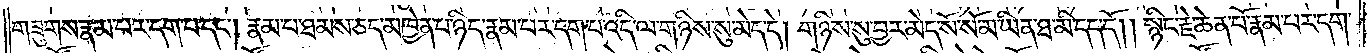གཟུགས་རྣམ་པར་དག་པ་དང༌། རྣམ་པ་ཐམས་ཅད་མཁྱེན་པ་ཉིད་རྣམ་པར་དག་པ་འདི་ལ་གཉིས་སུ་མེད་དེ། གཉིས་སུ་བྱར་མེད་སོ་སོ་མ་ཡིན་ཐ་མི་དད་དོ། །སྙིང་རྗེ་ཆེན་པོ་རྣམ་པར་དག་
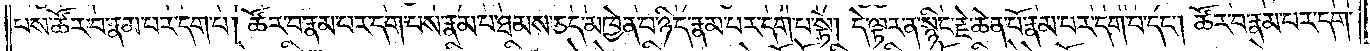པས་ཚོར་བ་རྣམ་པར་དག་པ། ཚོར་བ་རྣམ་པར་དག་པས་རྣམ་པ་ཐམས་ཅད་མཁྱེན་པ་ཉིད་རྣམ་པར་དག་པ་སྟེ། དེ་ལྟར་ན་སྙིང་རྗེ་ཆེན་པོ་རྣམ་པར་དག་པ་དང༌། ཚོར་བ་རྣམ་པར་དག་
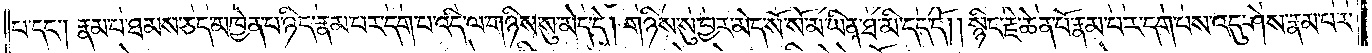པ་དང༌། རྣམ་པ་ཐམས་ཅད་མཁྱེན་པ་ཉིད་རྣམ་པར་དག་པ་འདི་ལ་གཉིས་སུ་མེད་དེ། གཉིས་སུ་བྱར་མེད་སོ་སོ་མ་ཡིན་ཐ་མི་དད་དོ། །སྙིང་རྗེ་ཆེན་པོ་རྣམ་པར་དག་པས་འདུ་ཤེས་རྣམ་པར་
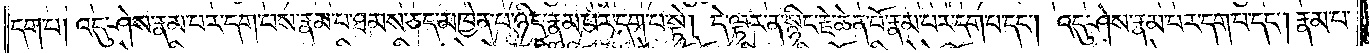དག་པ། འདུ་ཤེས་རྣམ་པར་དག་པས་རྣམ་པ་ཐམས་ཅད་མཁྱེན་པ་ཉིད་རྣམ་པར་དག་པ་སྟེ། དེ་ལྟར་ན་སྙིང་རྗེ་ཆེན་པོ་རྣམ་པར་དག་པ་དང༌། འདུ་ཤེས་རྣམ་པར་དག་པ་དང༌། རྣམ་པ་
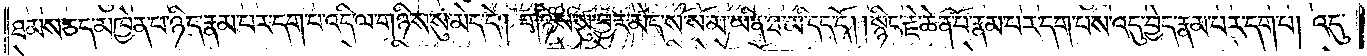ཐམས་ཅད་མཁྱེན་པ་ཉིད་རྣམ་པར་དག་པ་འདི་ལ་གཉིས་སུ་མེད་དེ། གཉིས་སུ་བྱར་མེད་སོ་སོ་མ་ཡིན་ཐ་མི་དད་དོ། །སྙིང་རྗེ་ཆེན་པོ་རྣམ་པར་དག་པས་འདུ་བྱེད་རྣམ་པར་དག་པ། འདུ་
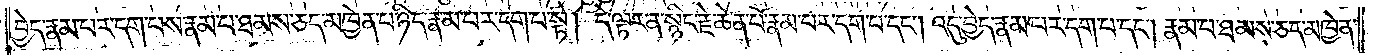བྱེད་རྣམ་པར་དག་པས་རྣམ་པ་ཐམས་ཅད་མཁྱེན་པ་ཉིད་རྣམ་པར་དག་པ་སྟེ། དེ་ལྟར་ན་སྙིང་རྗེ་ཆེན་པོ་རྣམ་པར་དག་པ་དང༌། འདུ་བྱེད་རྣམ་པར་དག་པ་དང༌། རྣམ་པ་ཐམས་ཅད་མཁྱེན་
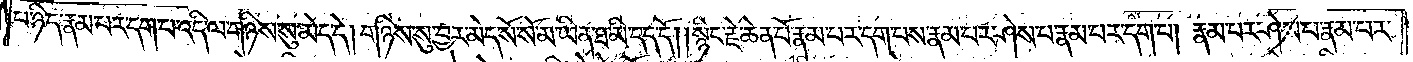པ་ཉིད་རྣམ་པར་དག་པ་འདི་ལ་གཉིས་སུ་མེད་དེ། གཉིས་སུ་བྱར་མེད་སོ་སོ་མ་ཡིན་ཐ་མི་དད་དོ། །སྙིང་རྗེ་ཆེན་པོ་རྣམ་པར་དག་པས་རྣམ་པར་ཤེས་པ་རྣམ་པར་དག་པ། རྣམ་པར་ཤེས་པ་རྣམ་པར་
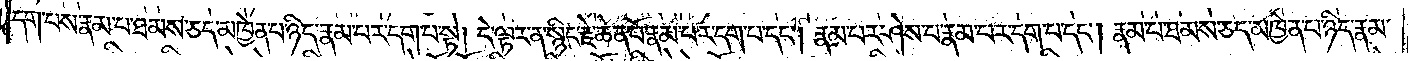དག་པས་རྣམ་པ་ཐམས་ཅད་མཁྱེན་པ་ཉིད་རྣམ་པར་དག་པ་སྟེ། དེ་ལྟར་ན་སྙིང་རྗེ་ཆེན་པོ་རྣམ་པར་དག་པ་དང༌། རྣམ་པར་ཤེས་པ་རྣམ་པར་དག་པ་དང༌། རྣམ་པ་ཐམས་ཅད་མཁྱེན་པ་ཉིད་རྣམ་
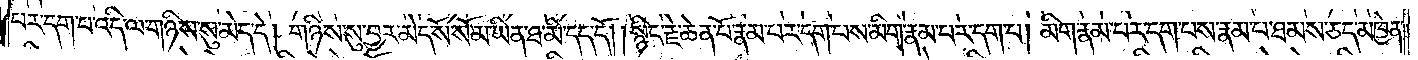པར་དག་པ་འདི་ལ་གཉིས་སུ་མེད་དེ། གཉིས་སུ་བྱར་མེད་སོ་སོ་མ་ཡིན་ཐ་མི་དད་དོ། །སྙིང་རྗེ་ཆེན་པོ་རྣམ་པར་དག་པས་མིག་རྣམ་པར་དག་པ། མིག་རྣམ་པར་དག་པས་རྣམ་པ་ཐམས་ཅད་མཁྱེན་
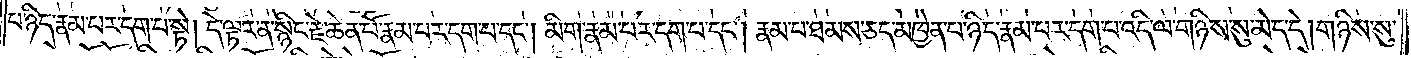པ་ཉིད་རྣམ་པར་དག་པ་སྟེ། དེ་ལྟར་ན་སྙིང་རྗེ་ཆེན་པོ་རྣམ་པར་དག་པ་དང༌། མིག་རྣམ་པར་དག་པ་དང༌། རྣམ་པ་ཐམས་ཅད་མཁྱེན་པ་ཉིད་རྣམ་པར་དག་པ་འདི་ལ་གཉིས་སུ་མེད་དེ། གཉིས་སུ་
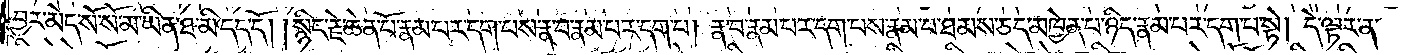བྱར་མེད་སོ་སོ་མ་ཡིན་ཐ་མི་དད་དོ། །སྙིང་རྗེ་ཆེན་པོ་རྣམ་པར་དག་པས་རྣ་བ་རྣམ་པར་དག་པ། རྣ་བ་རྣམ་པར་དག་པས་རྣམ་པ་ཐམས་ཅད་མཁྱེན་པ་ཉིད་རྣམ་པར་དག་པ་སྟེ། དེ་ལྟར་ན་
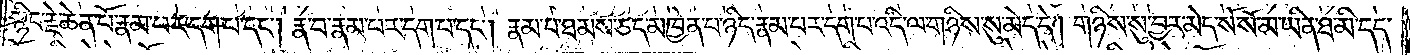སྙིང་རྗེ་ཆེན་པོ་རྣམ་པར་དག་པ་དང༌། རྣ་བ་རྣམ་པར་དག་པ་དང༌། རྣམ་པ་ཐམས་ཅད་མཁྱེན་པ་ཉིད་རྣམ་པར་དག་པ་འདི་ལ་གཉིས་སུ་མེད་དེ། གཉིས་སུ་བྱར་མེད་སོ་སོ་མ་ཡིན་ཐ་མི་དད་
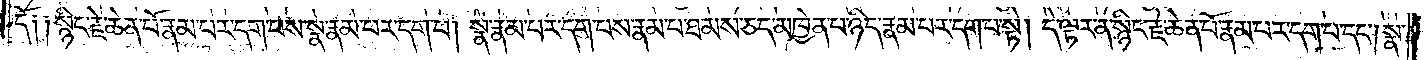དོ༑ ༑སྙིང་རྗེ་ཆེན་པོ་རྣམ་པར་དག་པས་སྣ་རྣམ་པར་དག་པ། སྣ་རྣམ་པར་དག་པས་རྣམ་པ་ཐམས་ཅད་མཁྱེན་པ་ཉིད་རྣམ་པར་དག་པ་སྟེ། དེ་ལྟར་ན་སྙིང་རྗེ་ཆེན་པོ་རྣམ་པར་དག་པ་དང༌། སྣ་
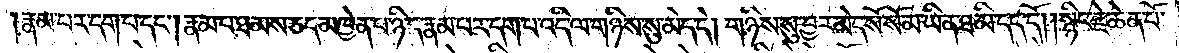རྣམ་པར་དག་པ་དང༌། རྣམ་པ་ཐམས་ཅད་མཁྱེན་པ་ཉིད་རྣམ་པར་དག་པ་འདི་ལ་གཉིས་སུ་མེད་དེ། གཉིས་སུ་བྱར་མེད་སོ་སོ་མ་ཡིན་ཐ་མི་དད་དོ། །སྙིང་རྗེ་ཆེན་པོ་
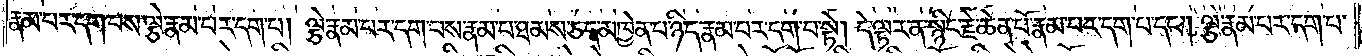རྣམ་པར་དག་པས་ལྕེ་རྣམ་པར་དག་པ། ལྕེ་རྣམ་པར་དག་པས་རྣམ་པ་ཐམས་ཅད་མཁྱེན་པ་ཉིད་རྣམ་པར་དག་པ་སྟེ། དེ་ལྟར་ན་སྙིང་རྗེ་ཆེན་པོ་རྣམ་པར་དག་པ་དང༌། ལྕེ་རྣམ་པར་དག་པ་
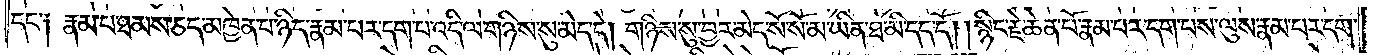དང་༑ རྣམ་པ་ཐམས་ཅད་མཁྱེན་པ་ཉིད་རྣམ་པར་དག་པ་འདི་ལ་གཉིས་སུ་མེད་དེ། གཉིས་སུ་བྱར་མེད་སོ་སོ་མ་ཡིན་ཐ་མི་དད་དོ། །སྙིང་རྗེ་ཆེན་པོ་རྣམ་པར་དག་པས་ལུས་རྣམ་པར་དག་
